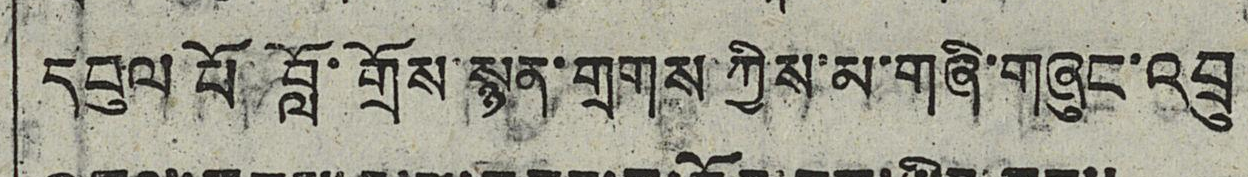དབུལ པོ་བློ་གྲོས་སྙན་གྲགས་ཀྱིས་མ་གཞི་གཞུང་འབྲུ
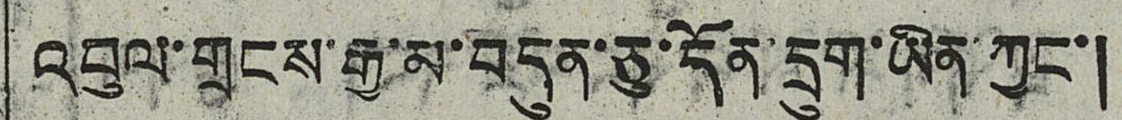འབུལ་གྲངས་རྒྱ་མ་བདུན་ཅུ་དོན་དྲུག་ཡིན ཀྱང་།
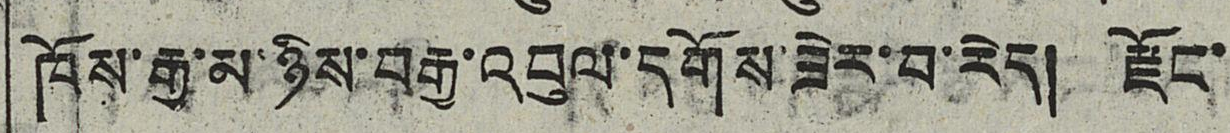ཁོས་རྒྱ་མ་ཉིས་བརྒྱ་འབུལ་དགོས་ཟེར་བ་རེད། རྫོང་
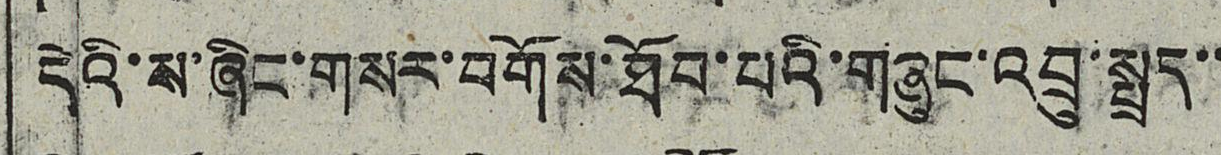དེའི་ས་ཞིང་གསར་བགོས་ཐོབ་པའི་གཞུང་འབྲུ་སྤྲད་་
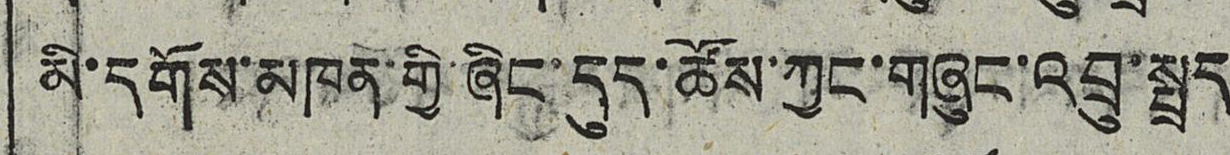མི་དགོས་མཁན་གྱི་ཞིང་དུད་ཚོས་ཀྱང་གཞུང་འབྲུ་སྤྲད
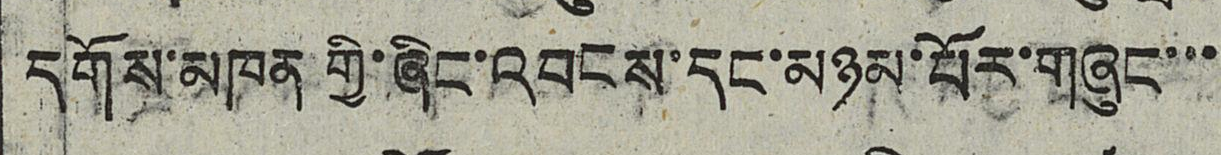དགོས་མཁན་གྱི་ཞིང་འབངས་དང་མཉམ་པོར་གཞུང་་་
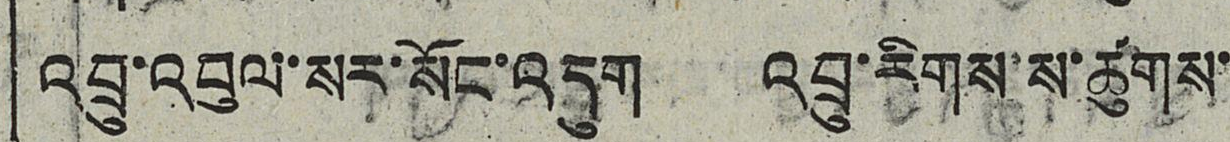འབྲུ་འབུལ་སར་སོང་འདུག འབྲུ་རིགས་ས་ཚུགས་
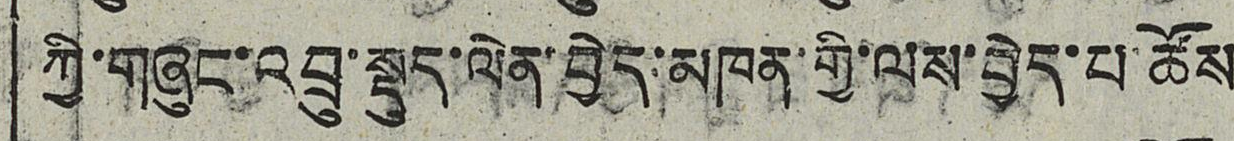ཀྱི་གཞུང་འབྲུ་སྡུད་ལེན་བྱེད་མཁན་གྱི་ལས་བྱེད་པ་ཚོས
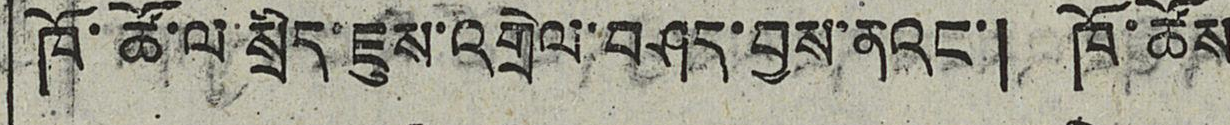ཁོ་ཚོ་ལ་སྲིད་ཇུས་འགྲེལ་བཤད་བྱས་ནའང་། ཁོ་ཚོས
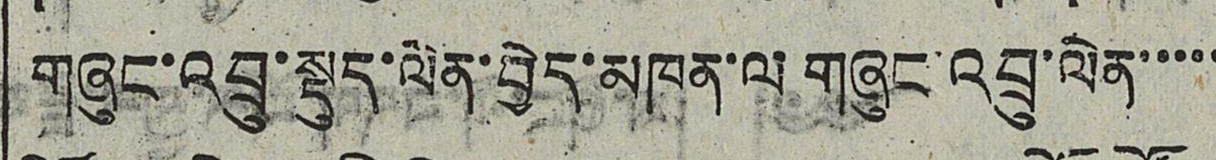གཞུང་འབྲུ་སྡུད་ལེན་བྱེད་མཁན་ལ གཞུང་འབྲུ་ལེན་་་་་
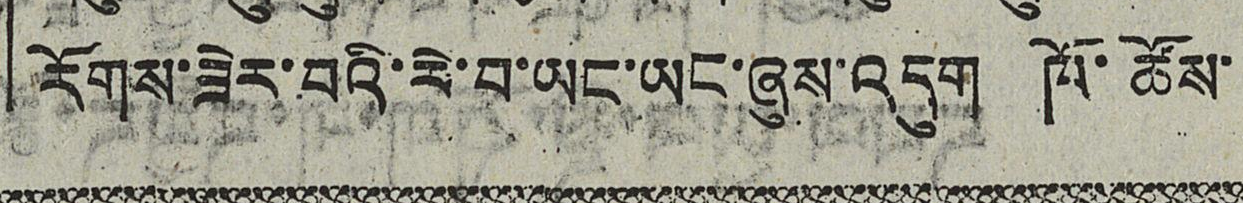རོགས་ཟེར་བའི་ཟེ་བ་ཡང་ཡང་ཞུས་འདུག ཁོ་ཚོས་
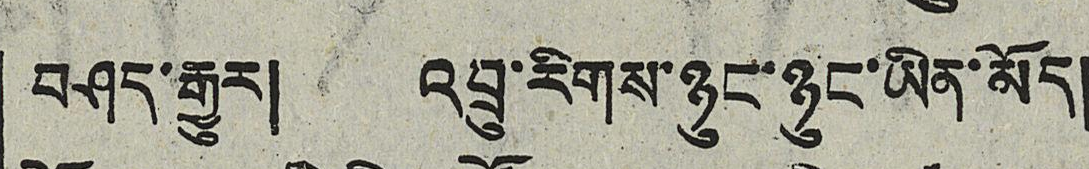བཤད་རྒྱུར། འབྲུ་རིགས་ཉུང་ཉུང་ཡིན་མོད།
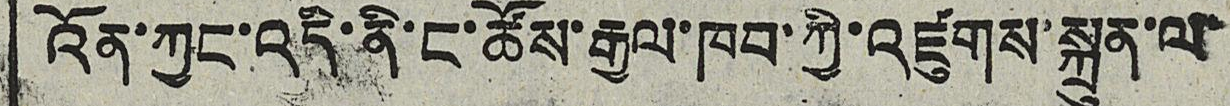འོན་ཀྱང་འདི་ནི་ང་ཚོས་རྒྱལ་ཁབ་ཀྱི་འཛུགས་སྐྲུན་ལ་
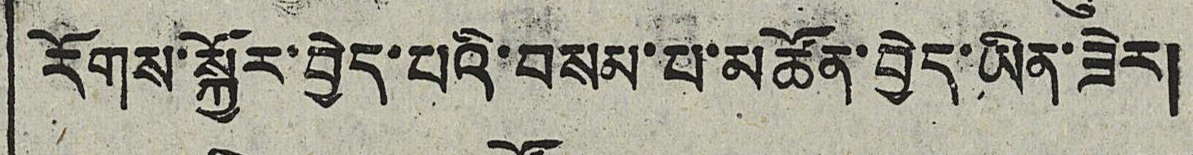རོགས་སྐྱོར་བྱེད་པའི་བསམ་པ་མཚོན་བྱེད་ཡིན་ཟེར།
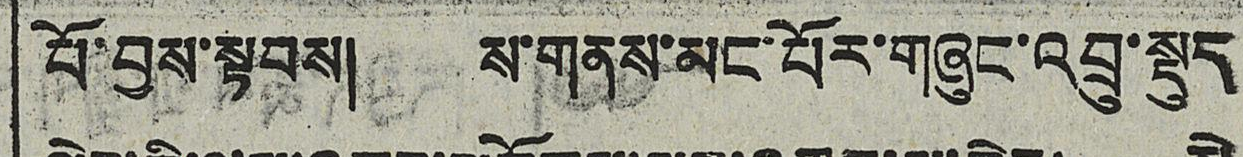པོ་བྱས་སྟབས། ས་གནས་མང་པོར་གཞུང་འབྲུ་སྡུད
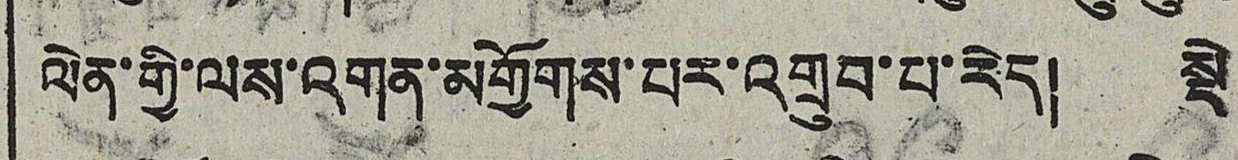ལེན་གྱི་ལས་འགན་མགྱོགས་པར་འགྲུབ་པ་རེད། སྡེ་
